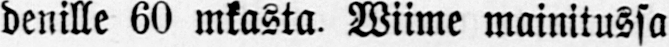denille 60 mkasta. Wiime mainitussa
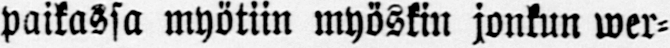paikassa myötiin myöskin jonkun wer-
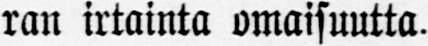ran irtainta omaisuutta.
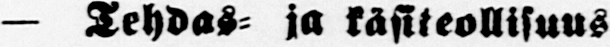— Tehdas- ja käsiteollisuus-
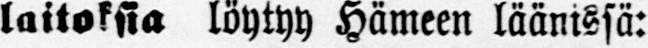laitoksia löytyy Hämeen läänissä:
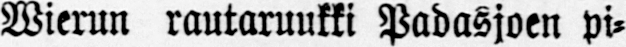Wierun rautaruukki Padasjoen pi-
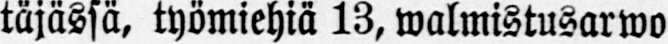täjässä, työmiehiä 13, walmistusarwo
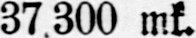37300 mk.
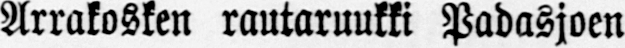Arrakosken rautaruukki Padasjoen
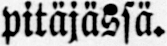pitäjässä.
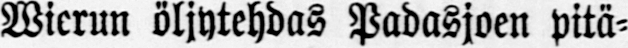Wierun öljytehdas Padasjoen pitä-
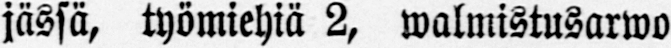jässä, työmiehiä 2, walmistusarwo
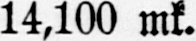14,100 mk.
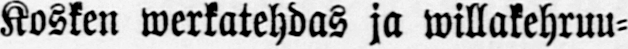Kosken werkatehdas ja willakehruu-
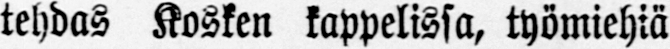tehdas Kosken kappelissa, työmiehiä
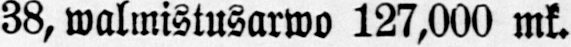38, walmistusarwo 127,000 mk.
